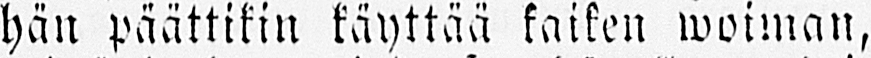hän päättikin käyttää kaiken woiman,
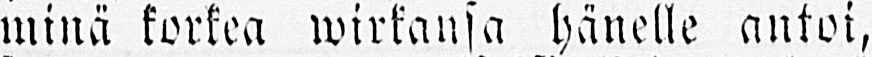minä korkea wirkansa hänelle antoi,
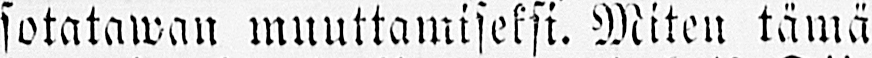sotatawan muuttamiseksi. Miten tämä
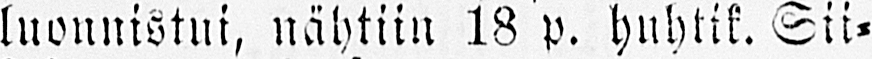luonnistui, nähtiin 18 p. huhtik. Sii-
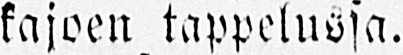kajoen tappelussa.
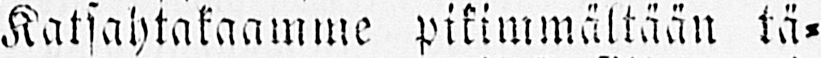Katsahtakaamme pikimmältään tä-
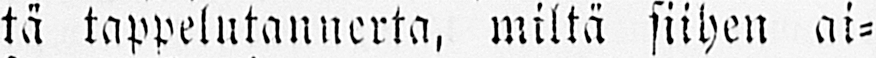tä tappelutannerta, miltä siihen ai-
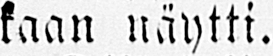kaan näytti.
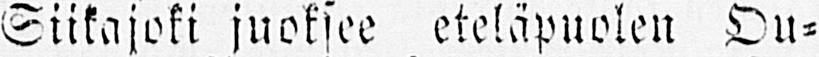Siikajoki juoksee eteläpuolen Ou-
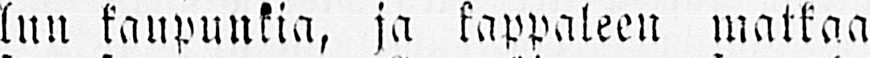lun kaupunkia, ja kappaleen matkaa
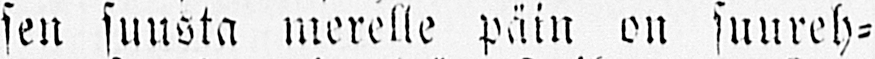sen suusta merelle päin on suureh-
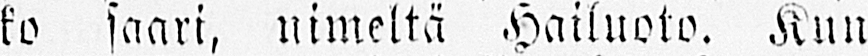ko saari, nimeltä Hailuoto. Kun
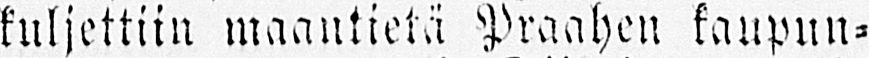kuljettiin maantietä Praahen kaupun-
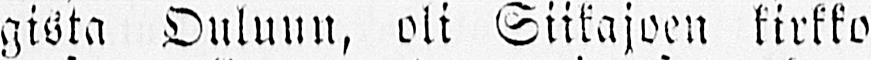gista Ouluun, oli Siikajoen kirkko
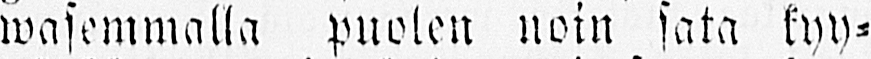wasemmalla puolen noin sata kyy-
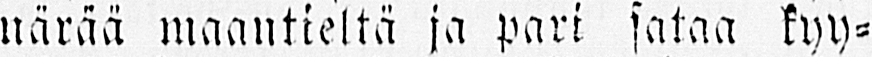närää maantieltä ja pari sataa kyy-
